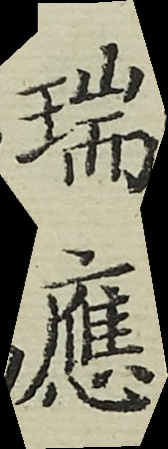瑞應
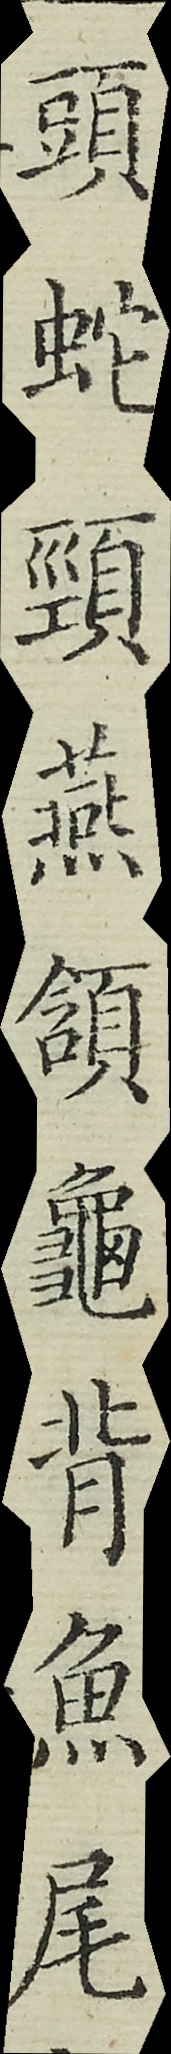頭蛇頸燕領龜背魚尾
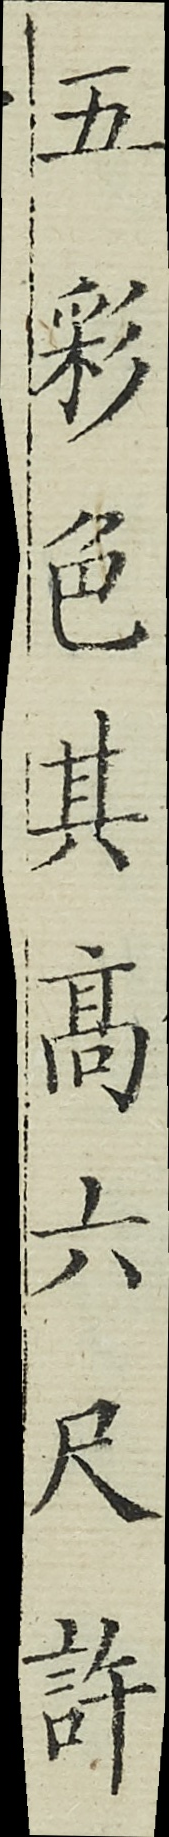五彩色其高六尺許
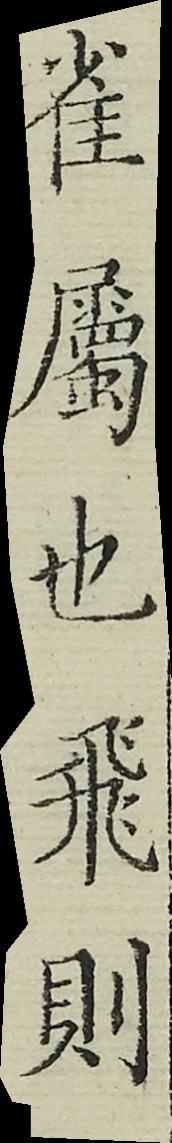雀屬也飛則
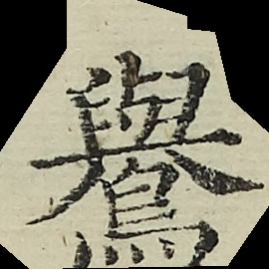鸒
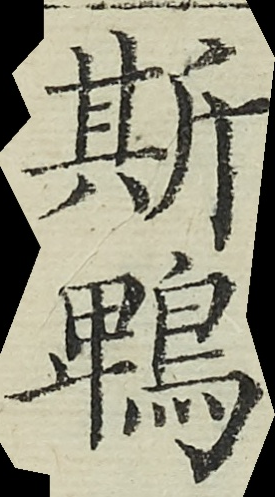斯鵯
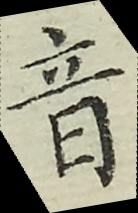音
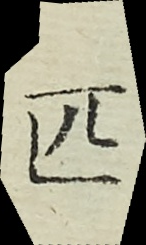匹
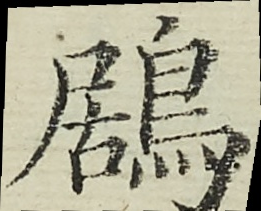鶋
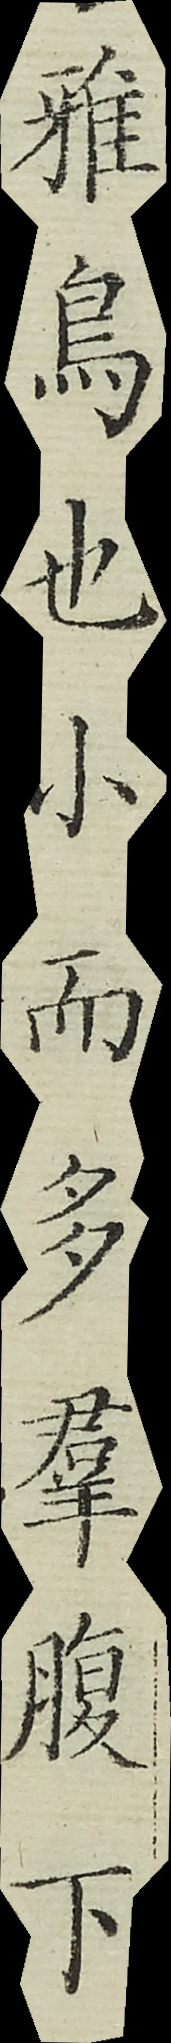雅鳥也小而多羣腹下
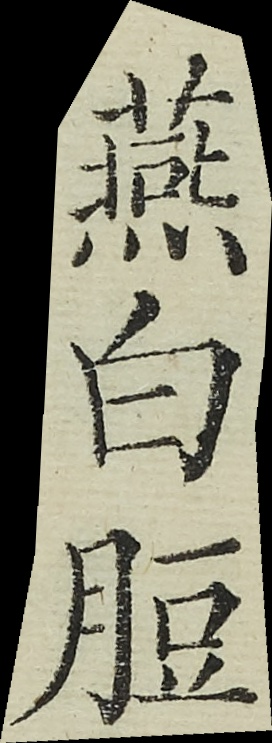燕白脰
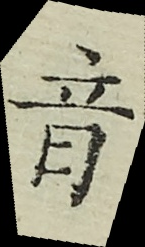音
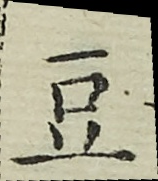豆
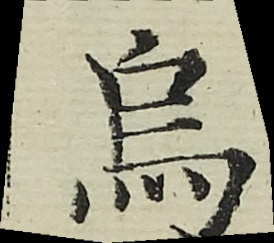烏
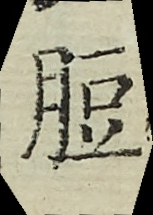脰
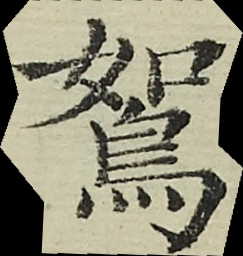鴽
